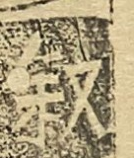敍
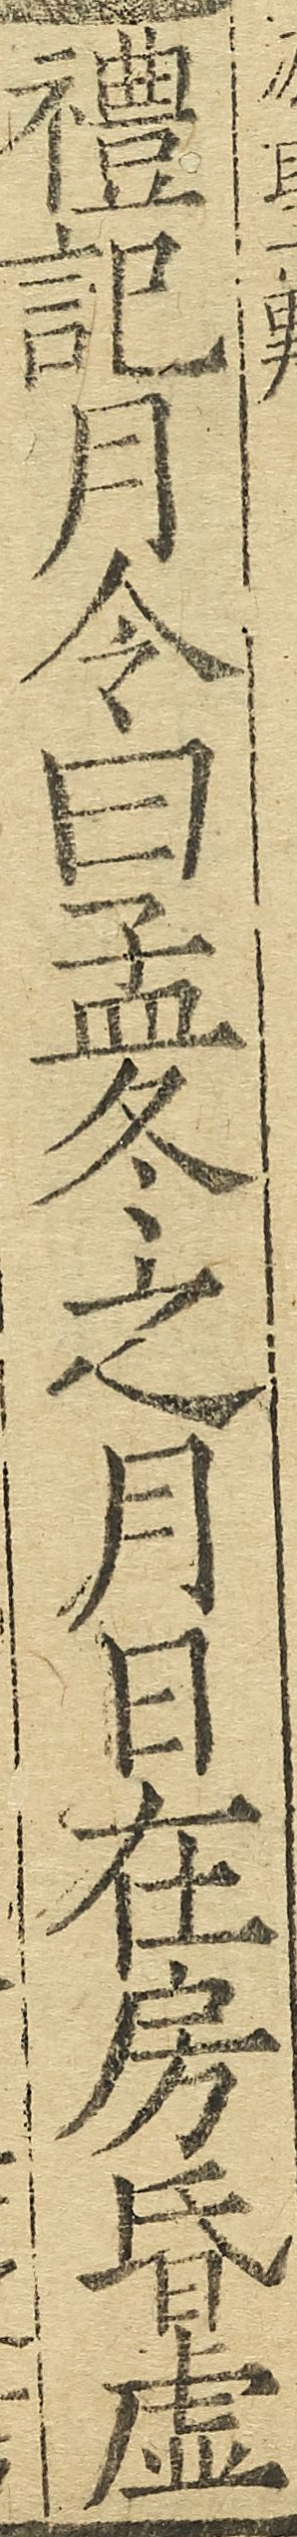禮記月令曰孟冬之月日在房昏虛
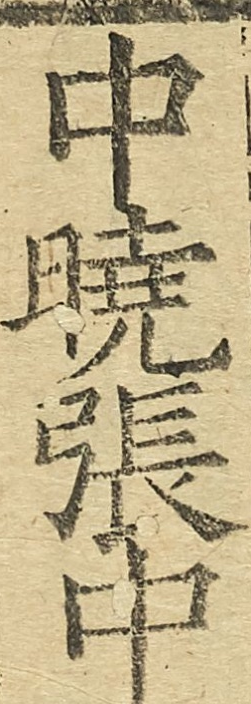中曉張中
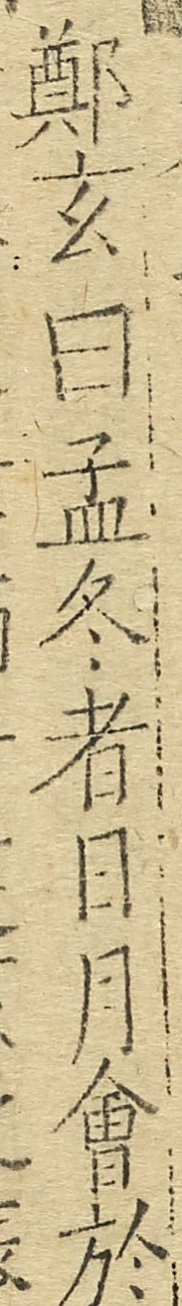鄭玄曰孟冬者日月會於
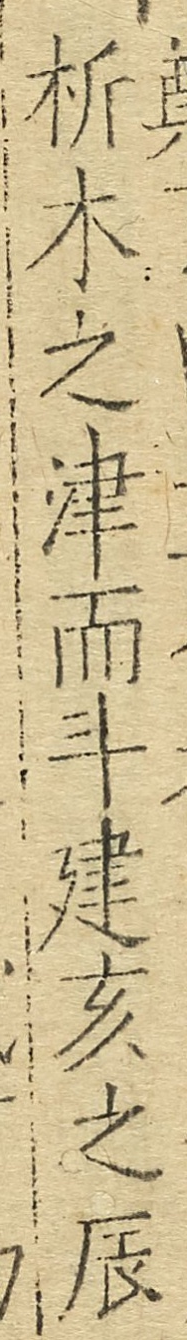析木之津而斗建亥之辰
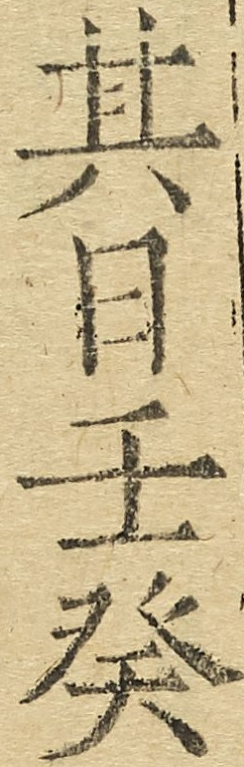其日壬癸
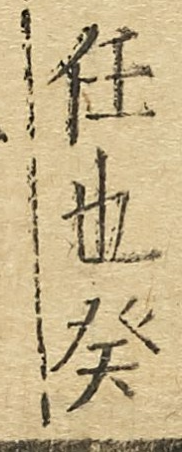任也癸
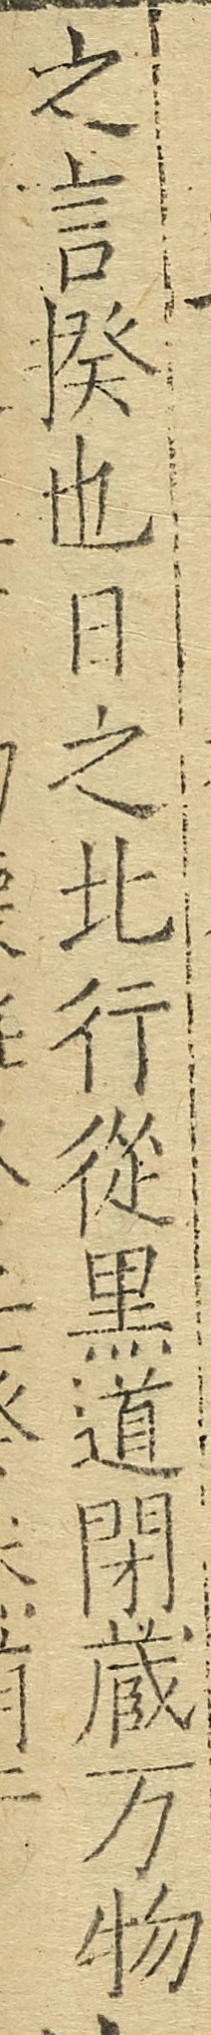之言揆也日之北行從黑道閉蔵萬物
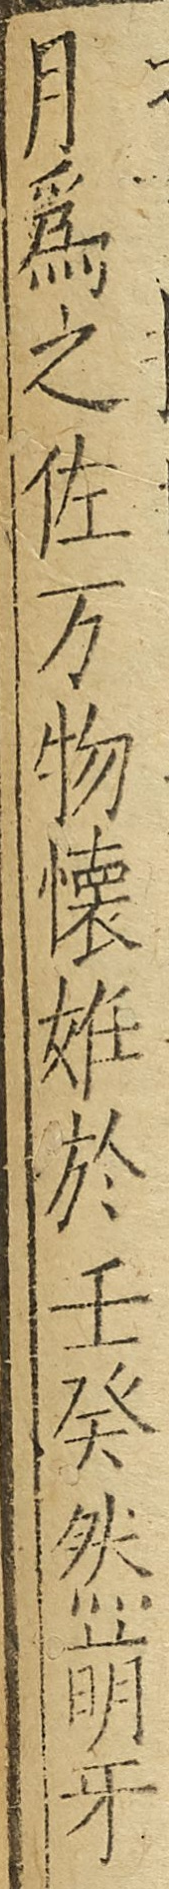月為之佐萬物懷姙於壬癸然萌牙
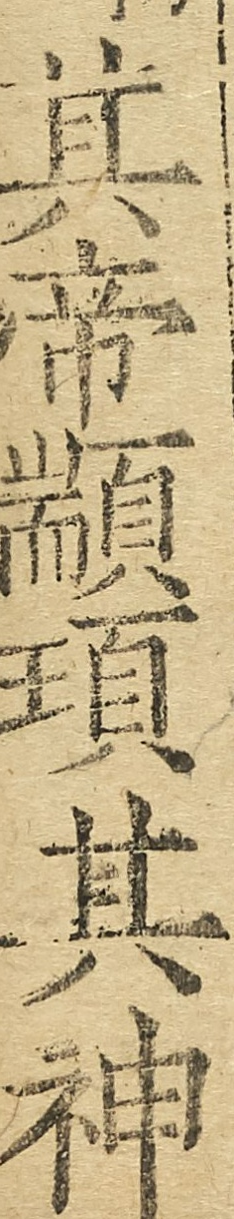其帝顓頊其神
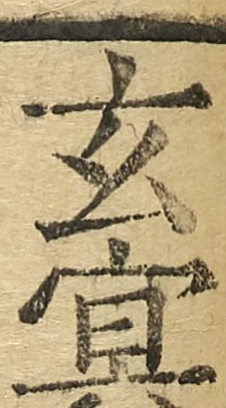玄冥
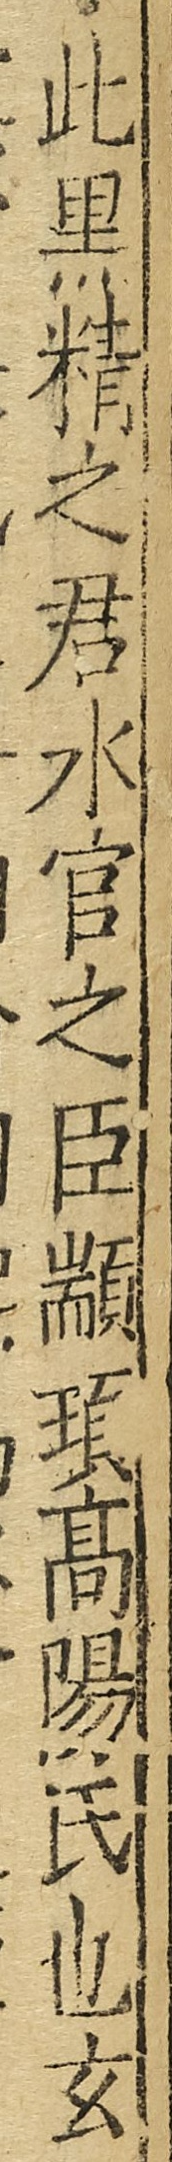此黑精之君水官之臣顓頊高陽氏也玄
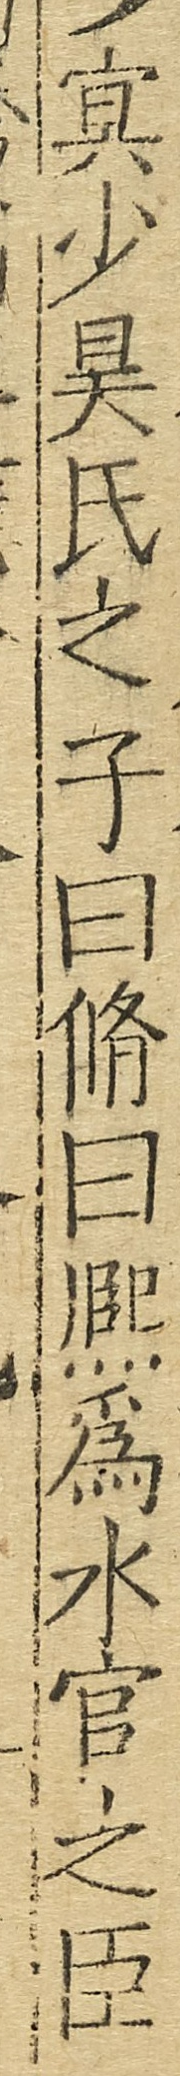冥少昊氏之子曰脩曰熙為水官之臣
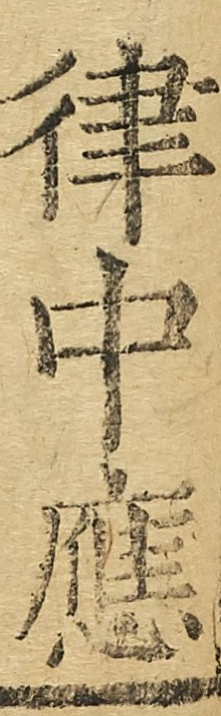律中應
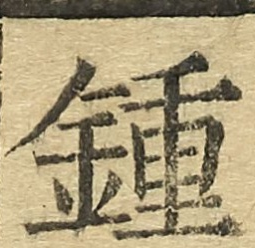鍾
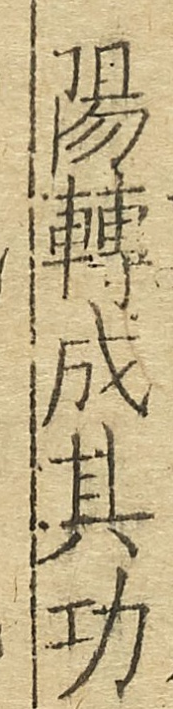陽轉成其功
